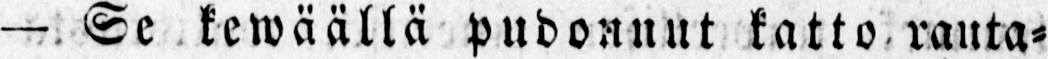— Se kewäällä pudonnut katto rauta-
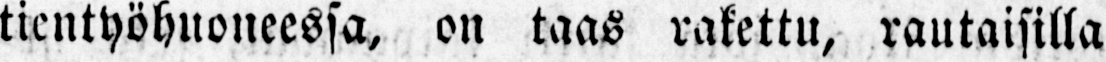tientyöhuoneessa, on taas rakettu, rautaisilla
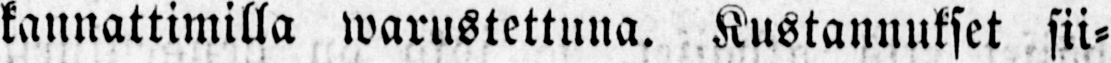kannattimilla warustettuna. Kustannukset sii-
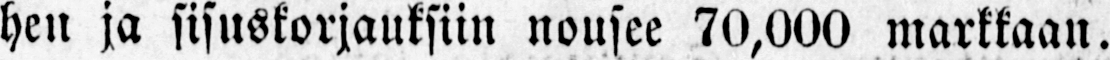hen ja sisuskorjauksiin nousee 70,000 markkaan.
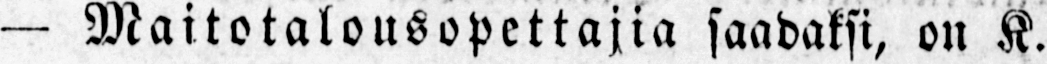— Maitotalousopettajia saadaksi, on K.
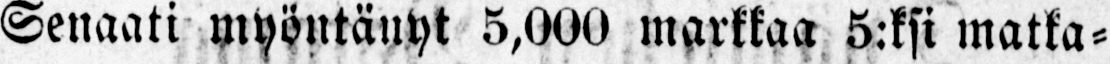Senaati myöntänyt 5,000 markkaa 5:ksi matka-
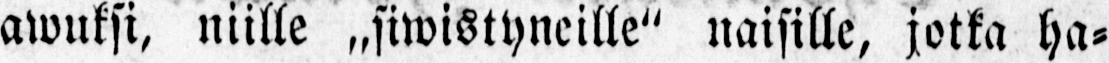awuksi, niille „siwistyneille" naisille, jotka ha-
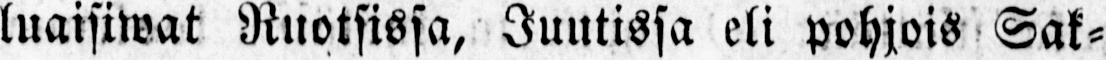luaisiwat Ruotsissa, Juutissa eli pohjois Sak-
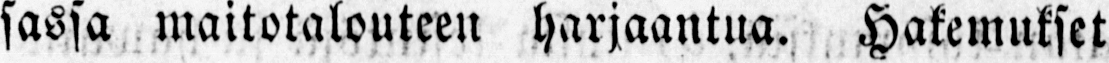sassa maitotalouteen harjaantua. Hakemukset
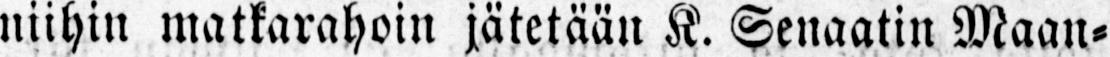niihin matkarahoin jätetään K. Senaatin Maan-
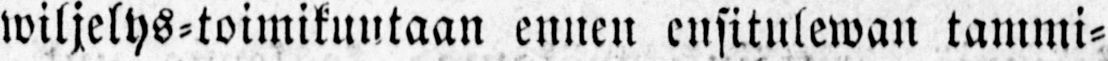wiljelys-toimikuntaan ennen ensitulewan tammi-
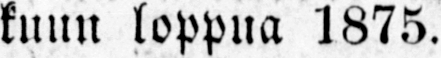kuun loppua 1875.
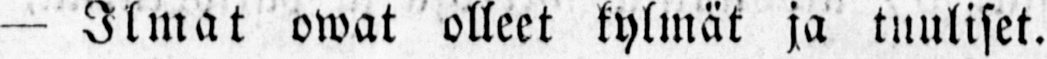— Ilmat owat olleet kylmät ja tuuliset.
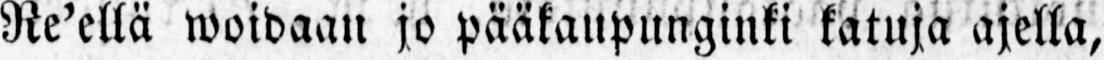Re'ellä woidaan jo pääkaupunginki katuja ajella,
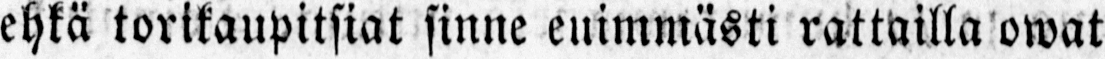ehkä torikaupitsiat sinne euimmästi rattailla owat
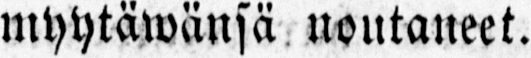myytäwänsä noutaneet.
